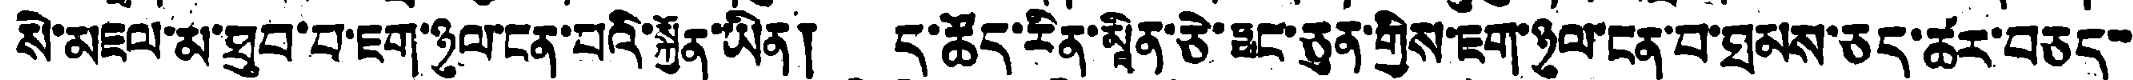སེ་མཇལ་མ་ཐུབ་པ་ཇག་ཉུལ་ངན་པའི་སྐྱོན་ཡིན། ད་ཚོད་རིན་མཱིན་ཅེ་ཧྥང་ཅུན་གྱིས་ཇག་ཉུལ་ངན་པ་ཐམས་ཅད་ཚར་བཅད་་
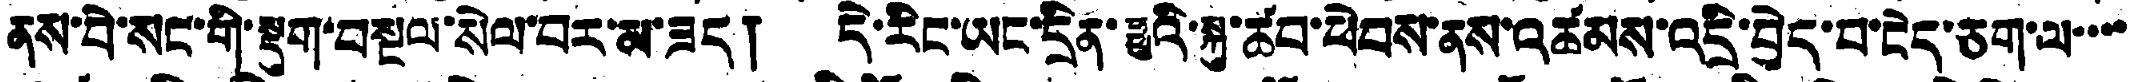ནས་བེ་སང་གི་སྡུག་བསྔལ་སེལ་བར་མ་ཟད། དེ་རིང་ཡང་དྲིན་ཧྥུའི་སྐུ་ཚབ་ཕེབས་ནས་འཚམས་འདྲི་བྱེད་པ་ངེད་ཅག་ལ་་་་
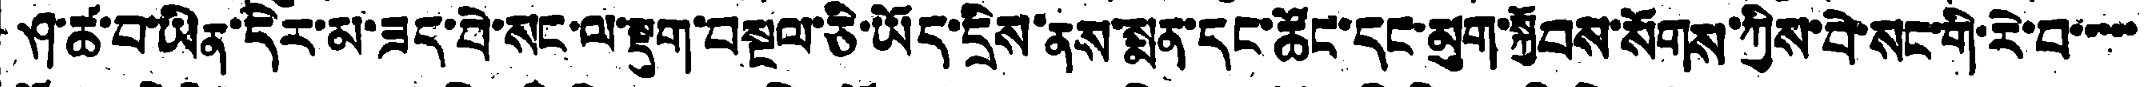ཤ་ཚ་བ་ཡིན་དེར་མ་ཟད་པེ་སང་ལ་སྡུག་བསྔལ་ཅི་ཡོད་དྲིས་ནས་སྨན་དང་ཚོང་དང་མུག་སྐྱོབས་སོགས་ཀྱིས་བེ་སང་གི་རེ་བ་་་་་
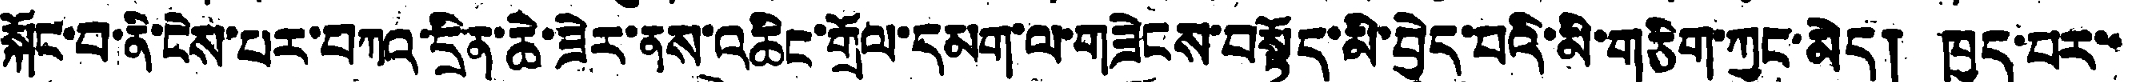སྐོང་བ་ནི་ངེས་པར་བཀའ་དྲིན་ཆེ་ཟེར་ནས་འཆིང་གྲོལ་དམག་ལ་གཟེངས་བསྟོད་མི་བྱེད་པའི་མི་གཅིག་ཀྱང་མེད། ཁྱད་པར་་
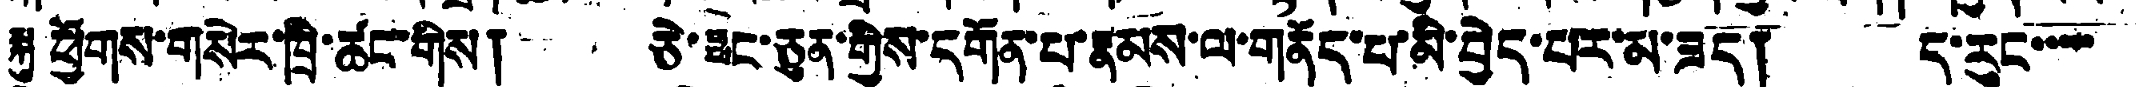སྐུ ཕྱོགས་གསེར་ཁྲི་ཚང་གིས། ཅེ་ཧྥང་ཅུན་གྱིས་དགོན་པ་རྣམས་ལ་གནོད་པ་མི་བྱེད་པར་མ་ཟད། ད་རུང་་་་་
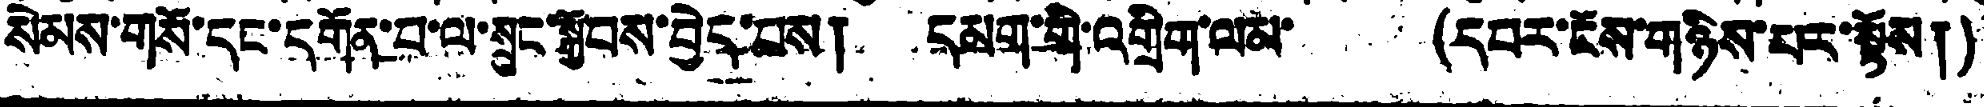སེམས་གསོ་དང་དགོན་པ་ལ་སྲུང་སྐྱབས་བྱེད་པས། དམག་གི་འགྲིག་ལམ་ (དཔར་ངོས་གཉིས་པར་སྟོས།)
